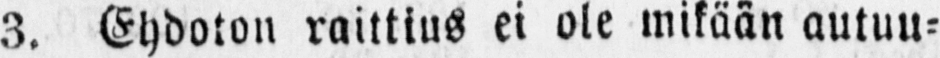3. Ehdoton raittius ei ole mikään autuu-
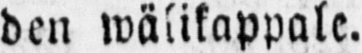den wälikappale.
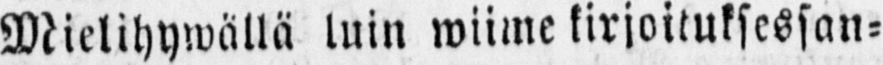Mielihywällä luin wiime kirjoituksessan-
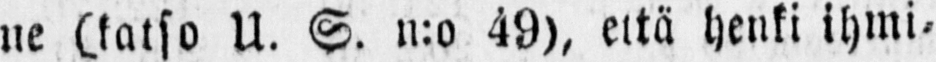ne (katso U. S. n:o 49), että henki ihmi-
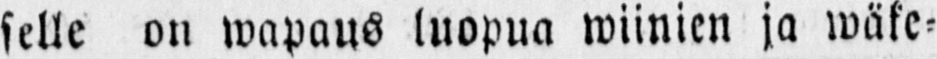selle on wapaus luopua wiinien ja wäke-
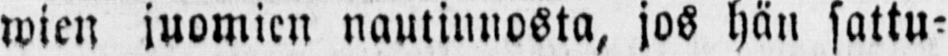wien juomien nautinnosta, jos hän sattu-
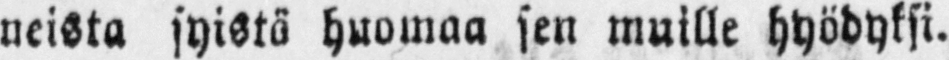neista syistä huomaa sen muille hyödyksi.
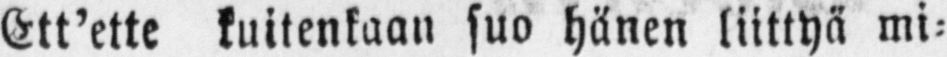Ett'ette kuitenkaan suo hänen liittyä mi-
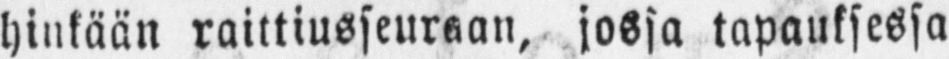hinkään raittiusseuraan, jossa tapauksessa
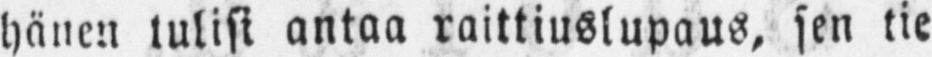hänen tulisi antaa raittiuslupaus, sen tie-
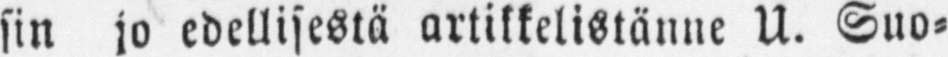sin jo edellisestä artikkelistänne U. Suo-
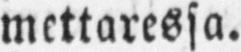mettaressa.
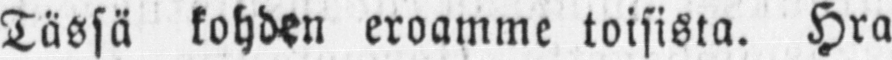Tässä kohden eroamme toisista. Hra
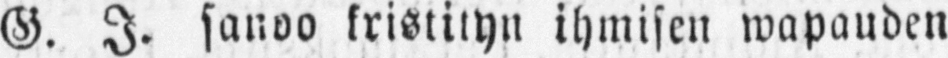G. I. sanoo kristityn ihmisen wapauden
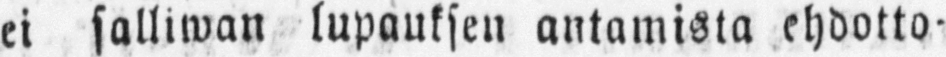ei salliwan lupauksen antamista ehdotto-
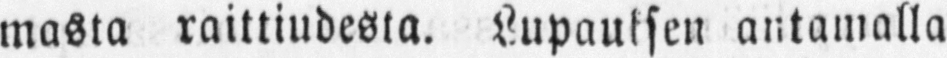masta raittiudesta. Lupauksen antamalla
